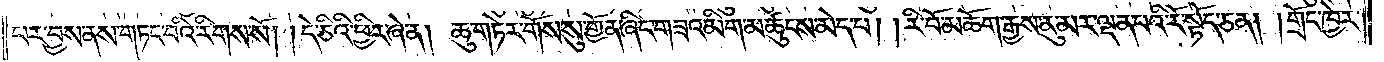པར་བྱས་ནས་གཏང་བའི་རིགས་སོ། །དེ་ཅིའི་ཕྱིར་ཞེ་ན། ཆུ་གཏེར་གོས་སུ་གྱོན་ཞིང་གཟའ་མིག་མཚུངས་མེད་པ། །རི་བོ་མཆོག་རྒྱས་ནུ་མར་ལྡན་པའི་རོ་སྟོད་ཅན། །གྲོང་ཁྱེར་
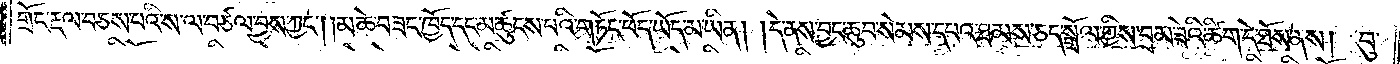གྲོང་རྡལ་བཅས་པའི་ས་ལ་བཙལ་བྱས་ཀྱང༌། མཆེ་བཟང་ཁྱོད་དང་མཚུངས་པའི་གཏོང་ཕོད་ཡོད་མ་ཡིན། །དེ་ནས་བྱང་ཆུབ་སེམས་དཔའ་ཐམས་ཅད་སྒྲོལ་གྱིས་བྲམ་ཟེའི་ཚིག་དེ་ཐོས་ནས། བུ་
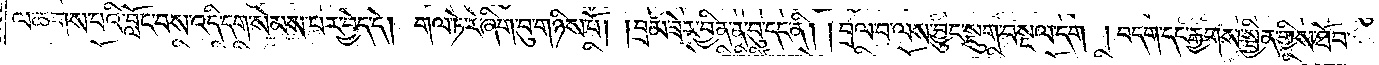ལ་ཆགས་པའི་བློང་བས་འདི་དག་སེམས་པར་བྱེད་དེ། གལ་ཏེ་རེ་ཞིག་བུ་གཉིས་པོ། །བྲམ་ཟེར་བྱིན་ན་བུ་དང་ནི། །བྲལ་བ་ལས་བྱུང་སྡུག་བསྔལ་དག །བདག་དང་རྒྱགས་སྦྱིན་གྱིས་ཐོབ་
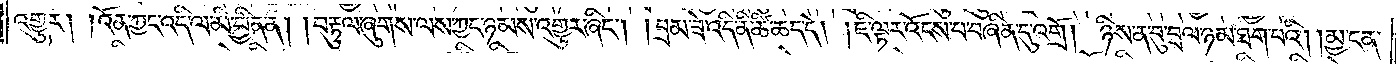འགྱུར། །འོན་ཀྱང་འདི་ལ་མི་བྱིན་ན། །བརྟུལ་ཞུགས་ལས་ཀྱང་ཉམས་འགྱུར་ཞིང༌། །བྲམ་ཟེ་འདི་ནི་ཚི་ཆད་དེ། །ཇི་ལྟར་འོངས་པ་བཞིན་དུ་འགྲོ། ཉིས་ན་བུ་བྲལ་ཉམ་ཐག་པའི། །མྱ་ངན་
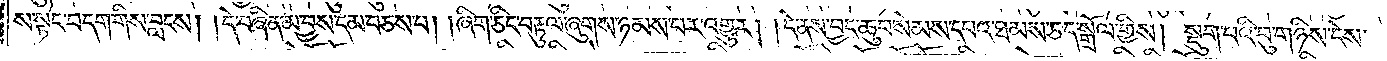ས་སྟེང་བདག་གིས་བླངས། །དེ་བཞིན་མ་བྱས་དམ་བཅས་པ། །ཞིག་ཅིང་བརྟུལ་ཞུགས་ཉམས་པར་འགྱུར། །དེ་ནས་བྱང་ཆུབ་སེམས་དཔའ་ཐམས་ཅད་སྒྲོལ་གྱིས། སྡུག་པའི་བུ་གཉིས་ངེས་
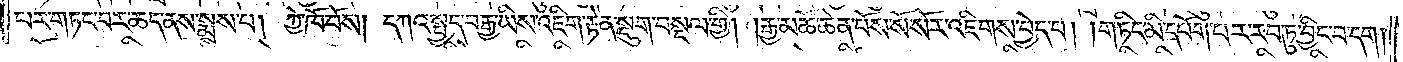པར་གཏང་བར་ཆད་ནས་སྨྲས་པ། ཀྱེ་ཁོ་བོས། དཀའ་སྤྱད་བརྒྱ་ཡིས་འཇིག་རྟེན་སྡུག་བསྔལ་གྱི། །རྒྱ་མཚོ་ཆེན་པོས་སོ་སོར་འཇིགས་བྱེད་པ། །གཏིང་མི་དཔོག་པར་རབ་ཏུ་བྱིང་བ་དག།
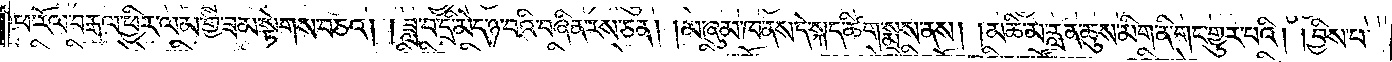ཕ་རོལ་བརྒལ་ཕྱིར་ལམ་གྱི་ཟམ་སྟེགས་བཅའ། །ཟླ་བ་དྲི་མེད་ཉ་བའི་བཞིན་རས་ཅན། །མ་ཞུམ་ཁ་ནས་དེ་སྐད་ཚིག་སྨྲས་ནས། །མཆི་མ་རླན་ཆུས་མིག་ནི་གང་གྱུར་པའི། །བྱིས་པ་
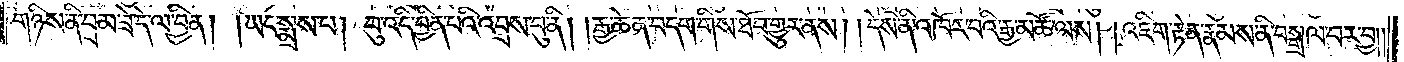གཉིས་ནི་བྲམ་ཟེ་དེ་ལ་བྱིན། །ཡང་སྨྲས་པ། བུ་འདི་བྱིན་པའི་འབྲས་བུ་ནི། །རྒྱ་ཆེན་བདག་གིས་ཐོབ་གྱུར་ནས། །དེས་ནི་འཁོར་བའི་རྒྱ་མཚོ་ལས། །འཇིག་རྟེན་རྣམས་ནི་བསྒྲལ་བར་བྱ། །
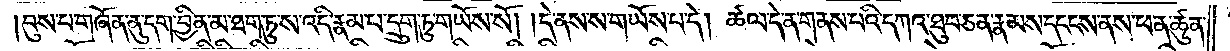བུས་པ་གཞོན་ནུ་དག་བྱིན་མ་ཐག་ཏུ་ས་འདི་རྣམ་པ་དྲུག་ཏུ་གཡོས་སོ། །དེ་ནས་ས་གཡོས་པ་དེ། ཚལ་དེ་ན་གནས་པའི་དཀའ་ཐུབ་ཅན་རྣམས་དངངས་ནས་ཕན་ཚུན་
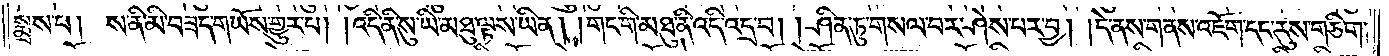སྨྲས་པ། ས་ནི་མི་བཟད་གཡོས་གྱུར་པ། །འདི་ནི་སུ་ཡི་མཐུ་ལྟས་ཡིན། །གང་གི་མཐུ་ནི་འདི་འདྲ་བ། །ཤིན་ཏུ་གསལ་བར་ཤེས་པར་བྱ། །དེ་ནས་གནས་འཇོག་དང་རུས་གཅིག་
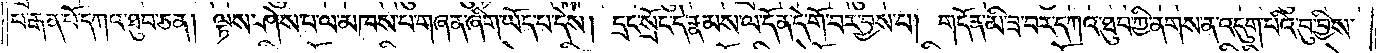པ་རྒན་པོ་དཀའ་ཐུབ་ཅན། ལྟས་ཤེས་པ་ལ་མཁས་པ་གཞན་ཞིག་ཡོད་པ་དེས། དྲང་སྲོང་དེ་རྣམས་ལ་དོན་དེ་གོ་བར་བྱས་པ། གདོན་མི་ཟ་བར་དཀའ་ཐུབ་ཀྱི་ནགས་ན་འདུག་པའི་བུ་བྱིས་
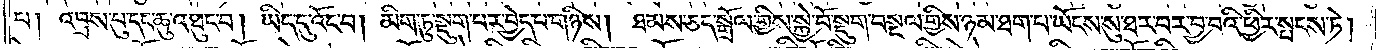པ། འབྲས་བུ་དང་ཆུ་འཐུང་བ། ཡིད་དུ་འོང་བ། མིག་ཏུ་སྡུག་པར་བྱེད་པ་གཉིས། ཐམས་ཅད་སྒྲོལ་གྱིས་སྐྱེ་བོ་སྡུག་བསྔལ་གྱིས་ཉམ་ཐག་པ་ཡོངས་སུ་ཐར་པར་བྱ་བའི་ཕྱིར་སྤངས་ཏེ།
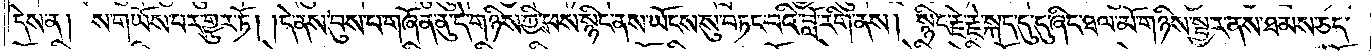དེས་ན། ས་གཡོས་པར་གྱུར་ཏོ། །དེ་ནས་བུས་པ་གཞོན་ནུ་དེ་གཉིས་ཀྱིས་ཕས་སྙིང་ནས་ཡོངས་སུ་བཏང་བའི་བློ་རིག་ནས། སྙིང་རྗེ་རྗེ་སྐད་དུ་དུ་ཞིང་ཐལ་མོ་གཉིས་སྦྱར་ནས་ཐམས་ཅད་
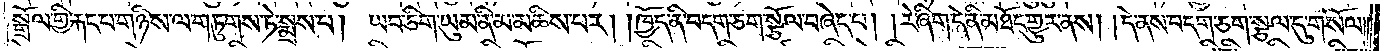སྒྲོལ་གྱི་རྐང་པ་གཉིས་ལ་གཏུགས་ཏེ་སྨྲས་པ། ཡབ་ཅིག་ཡུམ་ནི་མ་མཆིས་པར། །ཁྱོད་ནི་བདག་ཅག་སྩོལ་བཞེད་པ། །རེ་ཞིག་དེ་ནི་མཐོང་གྱུར་ནས། །དེ་ནས་བདག་ཅག་སྩལ་དུ་གསོལ། །
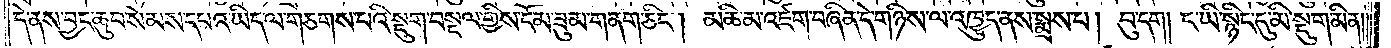དེ་ནས་བྱང་ཆུབ་སེམས་དཔའ་ཡིད་ལ་གཅགས་པའི་སྡུག་བསྔལ་གྱིས་ངོམ་ཟུམ་གནག་ཅིང༌། མཆི་མ་འཛག་བཞིན་དེ་གཉིས་ལ་འཁྱུད་ནས་སྨྲས་པ། བུ་དག། ང་ཡི་སྙིང་དུ་མི་སྡུག་མིན༎
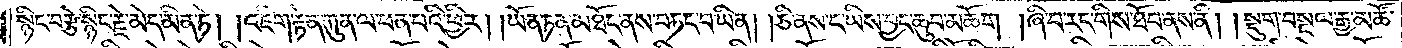སྙིང་བརྩེ་སྙིང་རྗེ་མེད་མིན་ཏེ། །འཇིག་རྟེན་ཀུན་ལ་ཕན་པའི་ཕྱིར། །ཡོན་ཏན་མཐོང་ནས་བཏང་བ་ཡིན། །ཅི་ནས་ང་ཡིས་བྱང་ཆུབ་མཆོག །ཞི་བ་རང་གིས་ཐོབ་ནས་ནི། །སྡུག་བསྔལ་རྒྱ་མཚོ་
